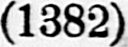(1382)
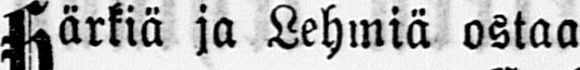Härkiä ja Lehmiä ostaa
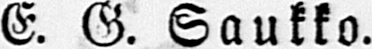E. G. Saukko.
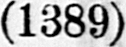(1389)
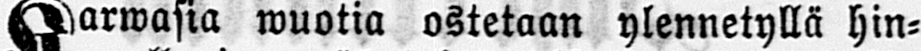Karwasia wuotia ostetaan ylennetyllä hin-
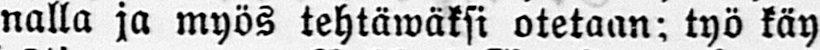nalla ja myös tehtäwäksi otetaan; työ käy
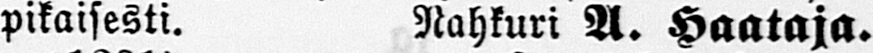pikaisesti. Nahkuri A. Haataja.
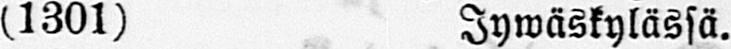(1301) Jywäskylässä.
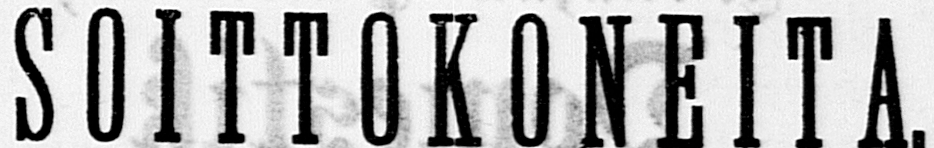Myytäwänä:
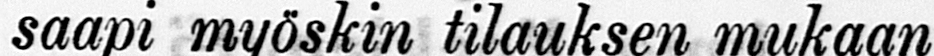SOITTOKONEITA,
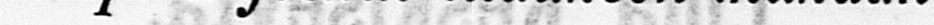parhaimmista Ruotsin ja Sak-
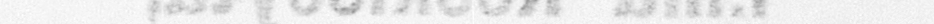san tehtaista, saapi tilata alle-
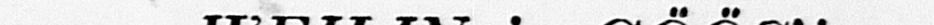kirjoittaneiden kautta.
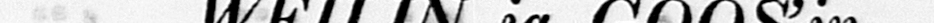Torvien näöstä on mallia näh-
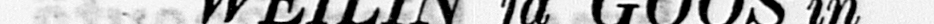tävänä.
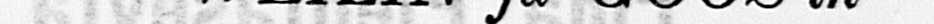Kaikenlaisia
